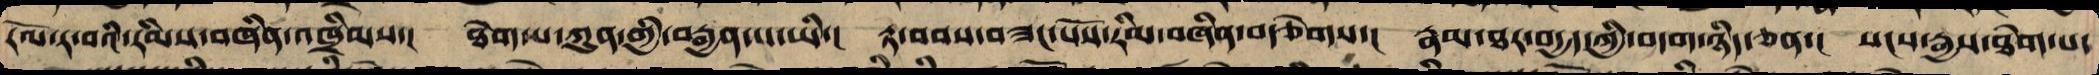རོལ་ར་བའི་རིམ་བཞིན་འཁྲིགས་། ཐེག་པ་ཀུན་གྱིས་བརྒྱན་པ་ཡི་། རྟ་བབས་བཟང་པོ་རིམ་བཞིན་བརྩེགས་། རྣམ་ཐར་བདྱད་ཀྱི་བདག་ཉིད་ཅན་། སངས་རྒྱས་ཐེག་པ་
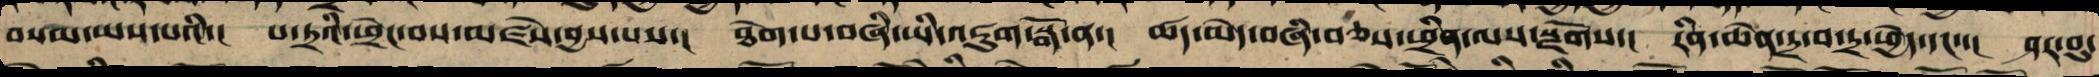བསམ་ཡས་པའི་། པ་ཏྲའི་ཕྲེང་བས་མཛེས་བྱས་པའི་། ཐེག་པ་བཞི་ཡི་འཇུག་སྒོ་ནས་། ཚད་མེད་བཞི་བཅས་ཕྲིན་ལས་སྫོགས་། རིན་ཆེན་དྲ་བ་དྲ་ཕྱེད་དང་་། ཤར་བུ་
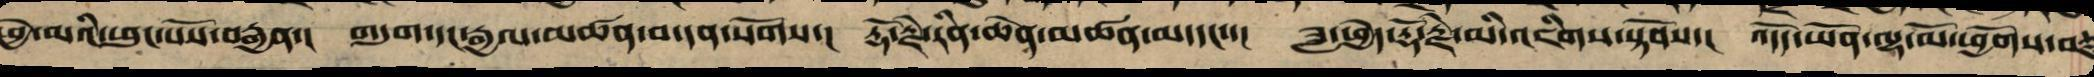ཕྱེ་མའི་ཕུང་པོས་བརྒྱན་། གདུགས་དང་རྒྱལ་མཚན་བ་དན་སོགས་། རྡོ་རྗེ་རིན་ཆེན་མཚན་མ་དང་་། ཟླ་ཕྱེད་རྡོ་རྗེ་མི་འཇིགས་སྟོབས་། འདོད་ཡོན་ལྷ་མོ་ཕྱོགས་བཅུ
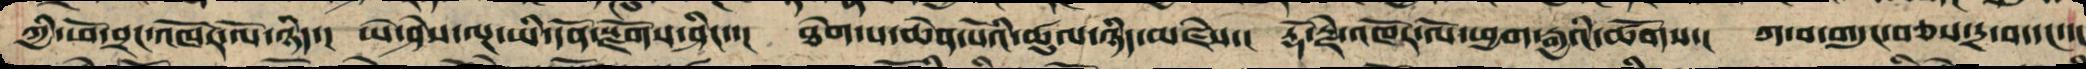ཀྱི་ཕོ་བྲང་འཁོར་ལོ་ཉིད་། ཡེ་ཤེས་ལྔ་ཡི་དོན་སྫོགས་ཤིང་་། ཐེག་པ་ཆེན་པོའི་ཚུལ་ཉིད་མཛེས་། རྡོ་རྗེ་འཁོར་ལོ་ཕྱག་རྒྱའི་ཚོགས་། ཀ་བ་གདུང་བཅས་དྲ་བ་དང་་།
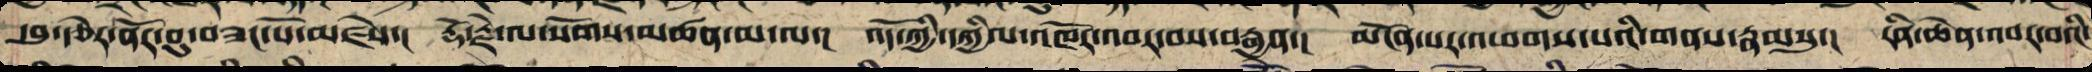དབུ་རྩེར་ནོར་བུ་བཟང་པོས་མཛེས་། རྡོ་རྗེ་ལ་སོགས་མཚན་མ་ལ་། འོད་ཀྱི་དཀྱིལ་འཁོར་འབར་བས་བརྒྱན་། མངོན་པར་འཕགས་པའི་གནས་རྣམསུ་། རིན་ཆེན་འབར་བའི་
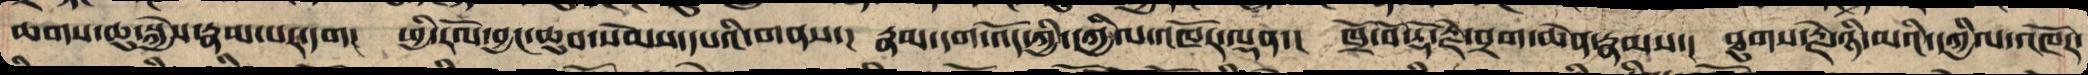ཆགས་ཆུ་སྐྱེས་རྣམ་པར་དག། ཕྱི་རོལ་བྱང་ཆུབ་སེམས་དཔའི་གནས་། རྣམ་དག་འོད་ཀྱི་དཀྱིལ་འཁོར་ལྡན་། ཁྲོ་བོ་རྡོ་རྗེའི་བྲག་ཆེན་རྣམས་། ཐུགས་རྗེ་ཉི་མའི་དཀྱིལ་འཁོར་
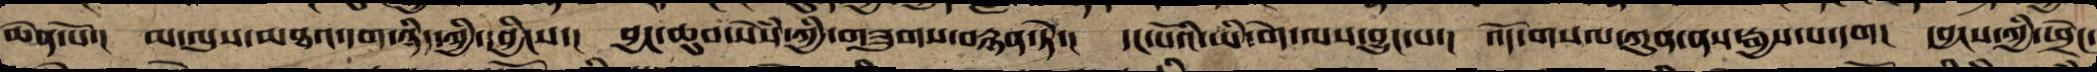ཆེན་པོ་། མ་ལུས་མཐའ་དག་ཉིད་ཀྱི་དབྱིངས་། བྱང་ཆུབ་སེཾས་ཀྱི་གཟུགས་བརྙན་ཏེ་། དང་པོའི་ཡི་གེ་ལས་བྱུང་བ་། འོད་གསལ་ཀུན་ནས་རྒྱས་པ་དག། དབྱངས་ཀྱི་ཕྲེང་
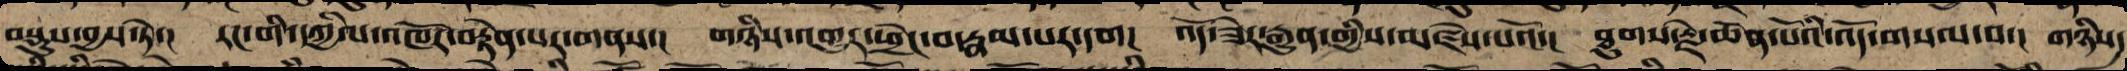བསྡུ་བྱས་ཏེ་། རང་གི་དཀྱིལ་འཁོར་བརྟེན་པར་གནས་། གཉིས་འགྱུར་ཕྲེང་བ་རྣམ་པར་དག། འོད་ཟེར་རྒྱུན་གྱིས་མཛེས་པའོ་། ཐུགས་རྗེ་ཆེན་པོའི་འོད་གསལ་བ་། གཉིས་
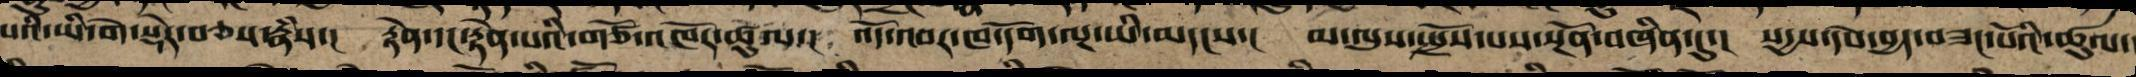པའི་ཡི་གེ་སྡེར་བཅས་རྣཾས་། རྟེན་དང་རྟེན་པའི་གཙོ་འཁོར་ཚུལ་། འོད་འབར་ཁ་དོག་ལྔ་ཡི་མདངས་། མ་ལུས་སྤྲོས་པས་སྔོན་བཞིན་དུ་། སདྱས་དཔེ་བྱད་བཟང་པོའི་ཚུལ་
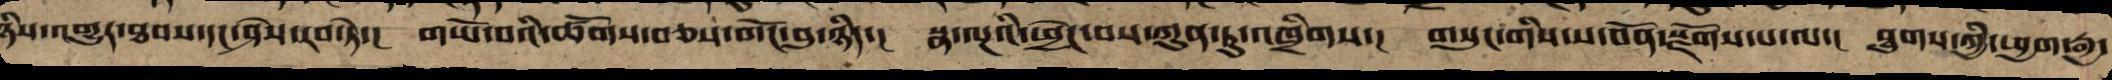ཉིས་འགྱུར་ཐབས་དང་ཤེས་རབ་ཏེ་། གཡོ་བའི་ཚོགས་བཅས་གང་དུ་ཉིད་། སྣ་ལྔའི་ཕྲེང་བས་ཀུན་ཏུ་འཁྲིགས་། གསུང་གི་ས་བོན་སྫོགས་པ་ལ་། ཐུགས་ཀྱི་ཕྱག་རྒྱ་
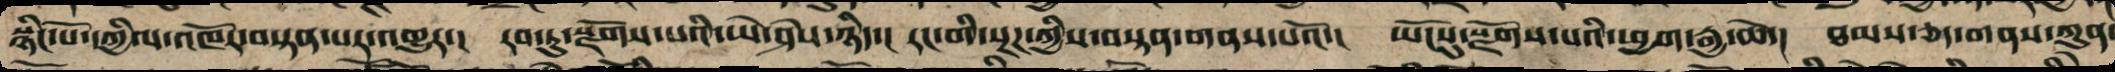སྙིང་པོའི་དཀྱིལ་འཁོར་བསྟན་པར་གྱུར་། རབ་ཏུ་སྫོགས་པའི་ཡེ་ཤེས་ཉིད་། རང་གི་སྔཌ་ཀྱིས་བསྟན་གནས་པའོ་། ཡོངསུ་སྫོགས་པའི་ཕྱག་རྒྱ་ཆེ་། ཐམས་ཅད་གནས་ཀུན་
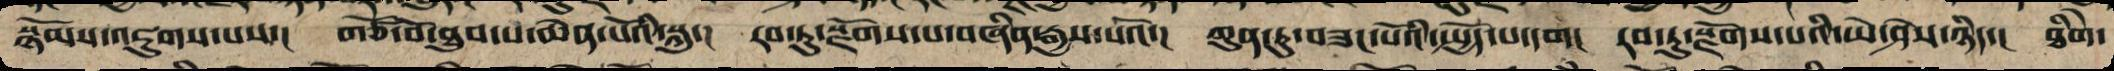སྙོམས་འཇུག་པས་། གཙོ་བོ་ཐུབ་པ་ཆེན་པོའི་སྐུ་། རབ་ཏུ་སྫོགས་པ་བཞིན་རྒྱས་པའོ་། ཀུན་ཏུ་བཟང་པོའི་སྤྱོད་པ་དག། རབ་ཏུ་སྫོགས་པའི་ཡེ་ཤེས་ཉིད་། ཐིགེ་
